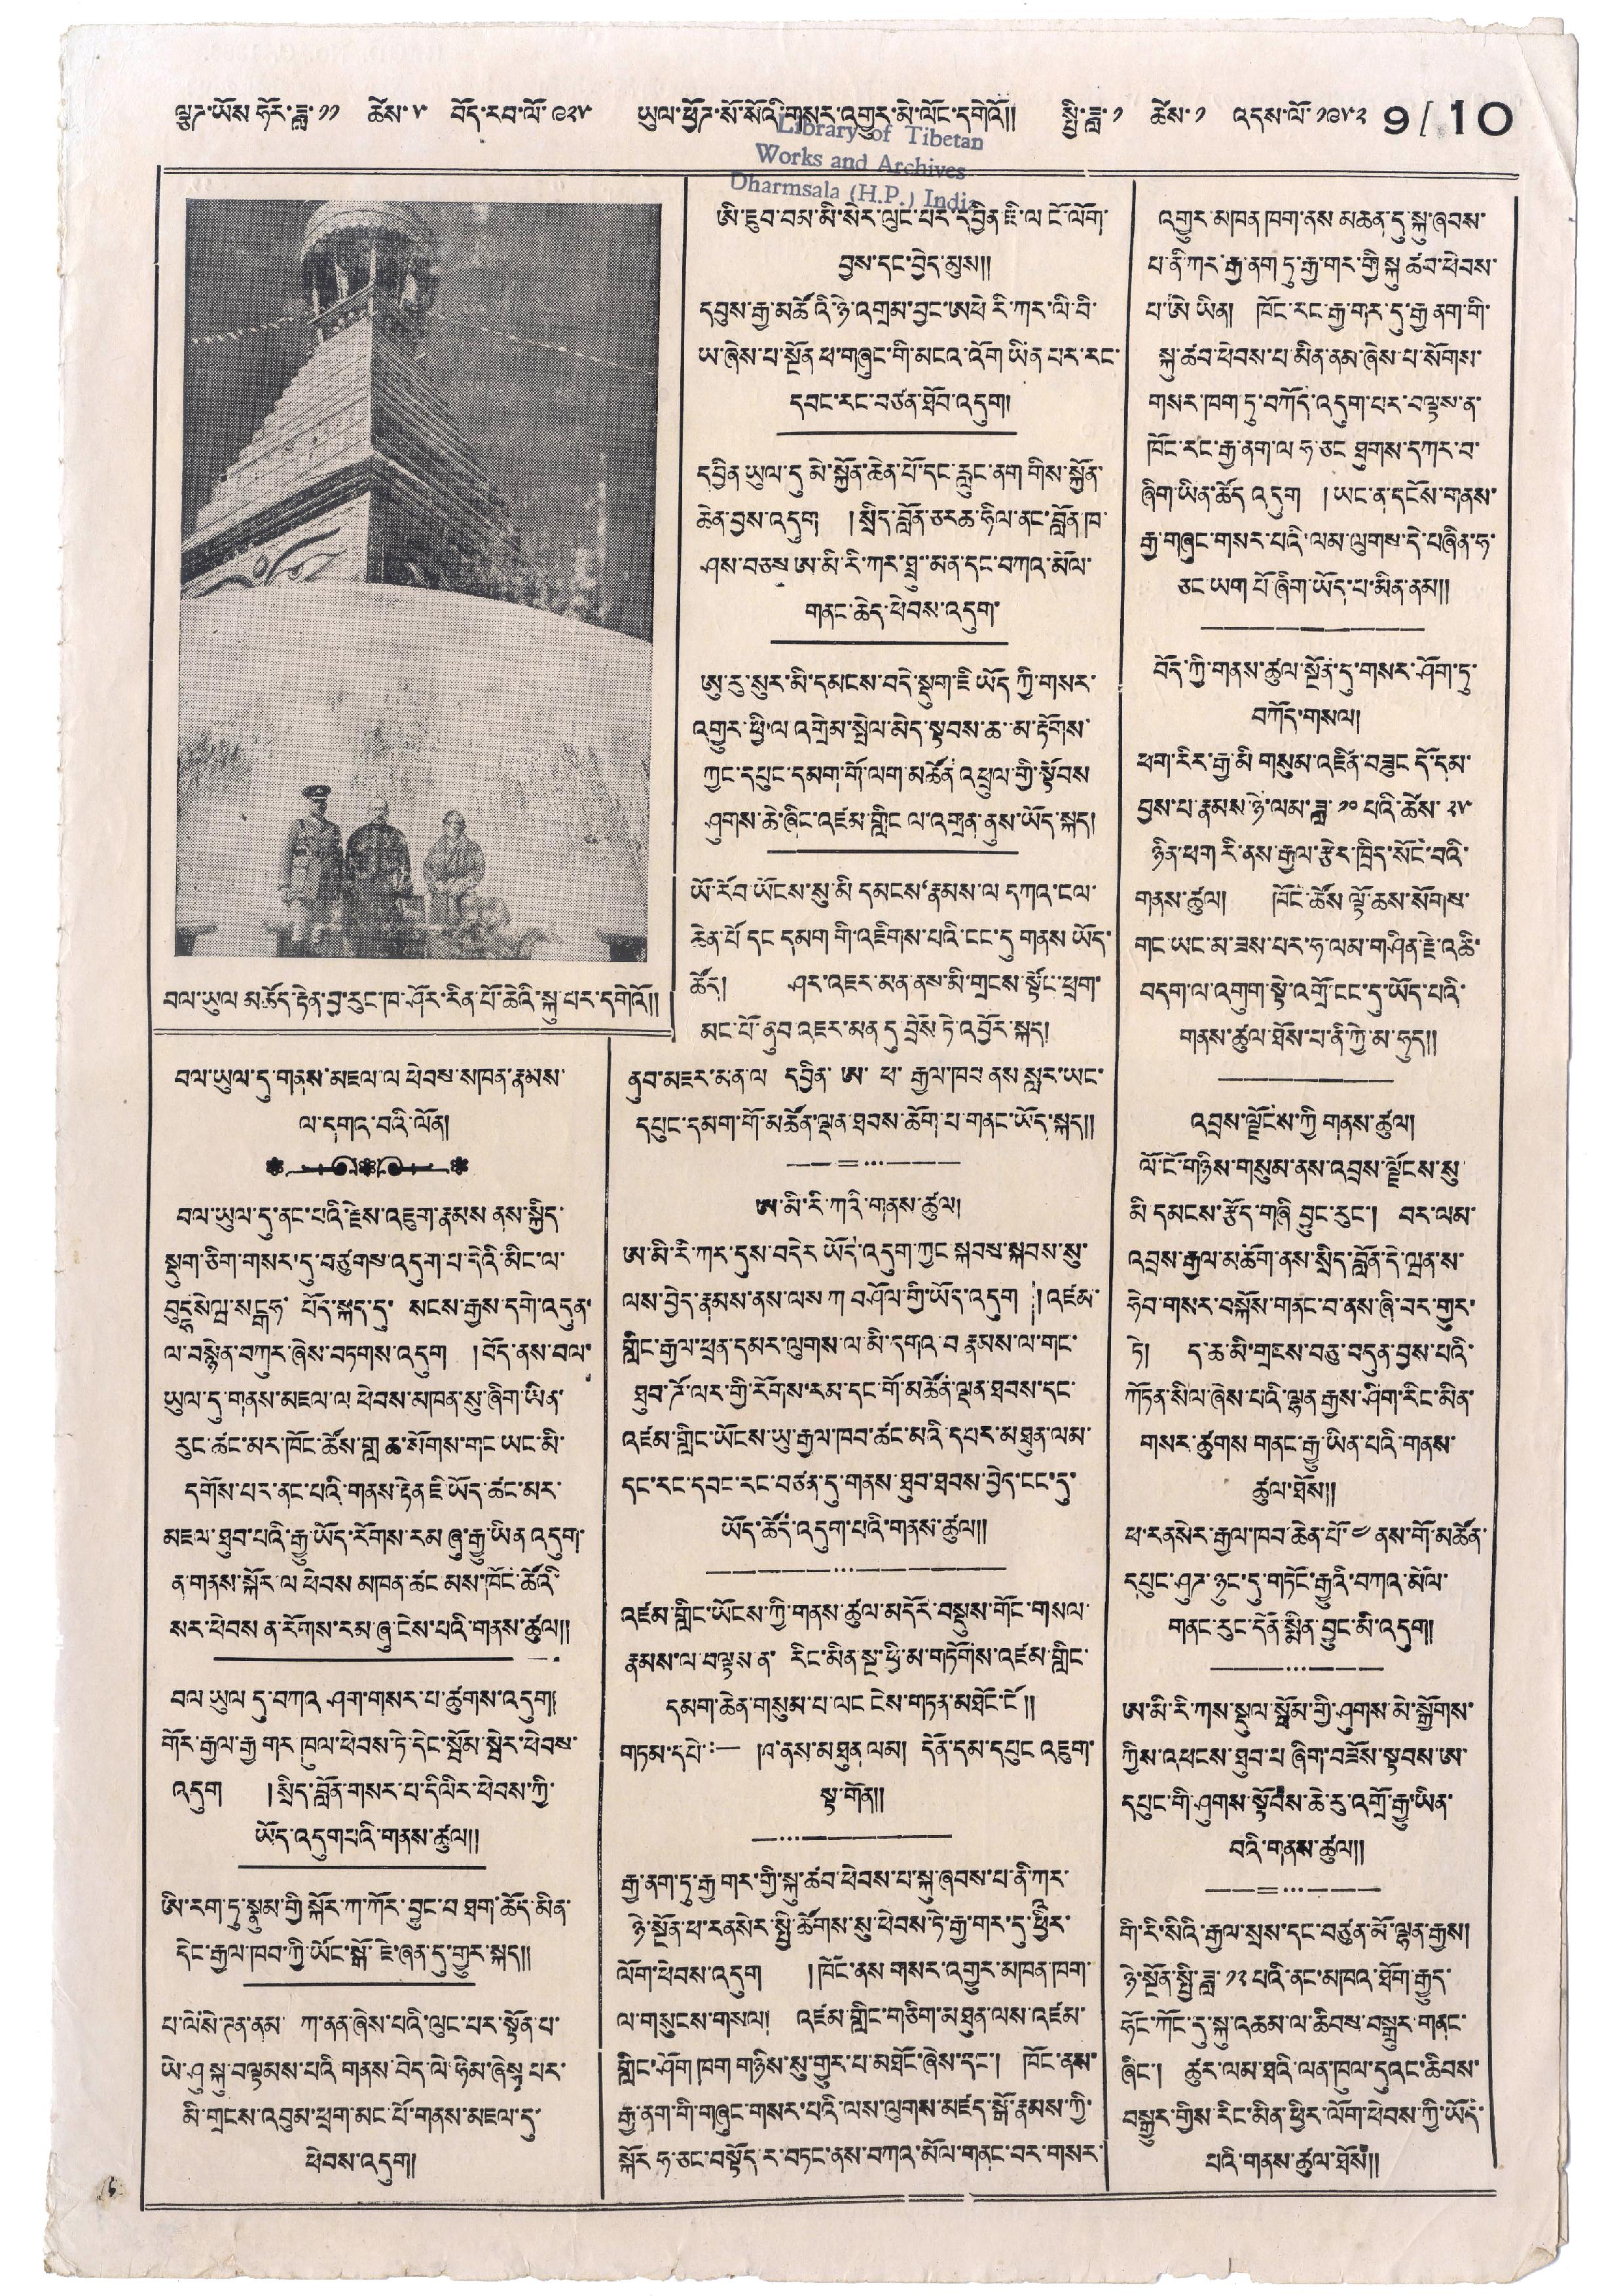ལྕཊ་ཡོས ཧོར་ཟླ་ ༡༡ ཚེས་ ༥ བོད་རབ་ལོ་ ༩༢༥ ཡུལ་ཕྱོཊ་སོ་སོའི་གསར་འགྱུར་མེ་ལོང་དགེའོ།། སྤྱི་ཟླ་ ༡ ཚེས་ ༡ འདས་ལོ་ ༡༩༥༢ 9/10
བལ་ཡུལ་མཆོད་རྟེན་བྱ་རུང་ཁ་ཤོར་རིན་པོ་ཆེའི་སྐུ་པར་དགེའོ།།
བལ་ཡུལ་དུ་གནས་མཇལ་ལ ཕེབས་མཁན་རྣམས་
ལ་དགའ་བའི་ལོན།
བལ་ཡུལ་དུ་ནང་པའི་རྗེས་འཇུག་རྣམས ནས་སྐྱིད་
སྡུག་ཅིག་གསར་དུ་བརྩུགས་འདུག་པ་དེའི་མིང་ལ་
བུདྷསེཝ་སངྒཧ་བོད་སྐད་དུ་སངས་རྒྱས་དགེ་འདུན་
ལ་བསྙེན་བཀུར་ཞེས་བཏགས་འདུག །བོད་ནས་བལ་
ཡུལ་དུ་གནས་མཇལ་ལ ཕེབས་མཁན་སུ་ཞིག་ཡིན་
རུང་ཚང་མང་ཁོང་ཚོས་གླ ཆ་སོགས་གང་ཡང་མི་
དགོས་པར་ནང་པའི་གནས་རྟེན་ཇི་ཡོད་ཚང་མར་
མཇལ་ཐུབ་པའི་རྒྱུ་ཡོད་རོགས་རམ་ཞུ་རྒྱུ་ཡིན་འདུག་
ན་གནས་སྐོར་ལ ཕེབས མཁན་ཚང་མས་ཁོང་ཚོའི་
སར་ཕེབས ན་རོགས་རམ་ཞུ་ངེས་པའི་གནས་ཚུལ།།
བལ་ཡུལ་དུ་བཀའ ཤག་གསར་པ་ཚུགས་འདུག།
གོར་རྒྱལ་རྒྱ་ གར ཁུལ་ཕེབས་ཏེ་དེང་སྦོམ་སྦེར་ཕེབས་
འདུག །སྲིད་བློན་གསར་པ་དིལིར་ཕེབས་ཀྱི་
ཡོད་འདུགཔའི་གནས་ཚུལ།།
ཨི་རག་ཏུ་སྣུམ་གྱི་སྐོར་ཀ་ཀོང་བྱུང་བ ཐག་ཆོད་མིན་
དེང་རྒྱལ་ཁབ་ཀྱི་ཡོང་སྒོ་ཇེ་ཞན་དུ་གྱུར་སྐད།།
པ་ལེ་སེ་ཌན་ནམ་ ཀ་ནན་ཞེས་པའི་ལུང་པར་སྟོན་པ་
ཡེ་ཤུ སྐུ་བལྟམས་པའི གནས་བདེ་ལེ་ཧེམ་ཞེས པར་
མི་གྲངས་འབུམ་ཕྲག་མང་པོ་གནས་མཇལ་དུ་
ཕེབས་འདུག།
ཨི་ཇུབ་བམ་མི་སེར་ལུང་པར་དབྱིན་ཇི་ལ ངོ་ལོག་
བྱས་དང་བྱེད་མུས།།
དབུས་རྒྱ་མཚོའི་ཉེ་འགྲམ་བྱང་ཨཕེརི་ཀར་ལི་བི་
ཡ་ཞེས་པ་སྔོན་ཕ་གཞུང་གི་མངའ་འོག་ཡིན་པར་རང་
དབང་རང་བཙན་ཐོབ་འདུག།
དབྱིན་ཡུལ་དུ མེ་སྐྱོན་ཆེན་པོ་དང་རླུང་ནག གིས་སྐྱོན་
ཆེན་བྱས་འདུག །སྲིད་བློན་ཅར ཆ་ཧིལ་ནང་བློན་ཁ་
ཤས་བཅས ཨ་མི་རི་ཀར་ཐྲུ་མན་དང་བཀའ་མོལ་
གནང་ཆེད་ཕེབས་འདུག་
ཨུ་རུ་སུར་མི་དམངས་བདེ་སྡུག་ཇི་ཡོད་ཀྱི་གསར་
འགྱུར་ཕྱི་ལ འགྲེམ་སྤེལ་མེད་སྟབས་ཆ་མ་རྟོགས་
ཀྱང་དཔུང་དམག་གོ་ལག་མཚོན་འཕྲུལ་གྱི་སྟོབས་
ཤུགས་ཆེ་ཞིང་འཛམ་གླིང ལ་འགྲམ་ནུས་ཡོད་སྐད།
ཡོ་རབ་ཡོངས་སུ་མི་དམངས'རྣམས་ལ དཀའ་ངལ་
ཆེན་པོ་དང་དམག་གི་འཇིགས་པའི་ངང་དུ་གནས་ཡོད་
ཚོད། ཤར་འཇར་མན་ནས་མི་གྲངས་སྟོང་ཕྲག་
མང་པོ་ནུབ་འཇར་མན་དུ བྲོས ཏེ་འབྱོར་སྐད།
ནུབ་མཇར་མན་ལ དབྱིན་ ཨ་ ཕ་ རྒྱལ་ཁབ ནས་སླར་ཡང་
དཔུང་དམག་གོ་མཆོན་ལྡན་ཐབས་ཆོག་པ་གནང་ཡོད་སྐད།།
ཨ་མི་རི་ཀའི་གནས་ཚུལ།
ཨ་མི་རི་ཀར་དུས་བདེར ཡོད་འདུག་ཀྱང་སྐབས་སྐབས་སུ་
ལས་བྱེད་རྣམས་ནས ལས ཀ བཤོལ་གྱི་ཡོད་འདུག །འཛམ་
གླིང་རྒྱལ་ཕྲན་དམར་ལུགས་ལ་མི་དགའ་བ རྣམས་ལ་གང་
ཐུབ་ཌོ་ལར་གྱི་རོགས་རམ་དང་གོ་མཚོན་ལྡན་ཐབས་དང་
འཛམ་གླིང་ཡོངས་ཡུ་རྒྱལ་ཁབ་ཚང་མའི་དབར་མཐུན་ལམ་
དང་རང་དབང་རང་བཙན་དུ་གནས་ཐུབ་ཐབས་བྱེད་ངང་དུ་
ཡོད་ཚོད་འདུག་པའི་གནས་ཚུལ།།
འཛམ་གླིང་ཡོངས་ཀྱི་གནས་ཚུལ་མདོར་བསྡུས་གོང་གསལ་
རྣམས་ལ་བལྟས་ན་ རིང་མིན་སྔ་ཕྱི་མ་གཏོགས་འཛམ་གླིང་
དམག་ཆེན་གསུམ་པ་ལང་ངེས་གཏན་མཐོང་ངོ།།
གཏམ་དཔེ:— ཁ་ནས་མཐུན་ལམ། དོན་དམ་དཔུང་འཇུག་
སྟ་གོན།།
རྒྱ་ནག་ཏུ་རྒྱ་གར་གྱི་སྐུ་ཚབ་ཕེབས་པ་སྐུ་ཞབས་པ་ནི་ཀཱར་
ཉེ་སྔོན་ཕ་རནསེར་སྤྱི་ཚོགས་སུ་ཕེབས་ཏེ་རྒྱ་གར་དུ་ཕྱིར་
ལོགས་ཕེབས་འདུག །ཁོང་ནས གསར་འགྱུར་མཁན་ཁག་
ལ་གསུངས་གསལ། འཛམ་གླིང་གཅིག་མཐུན་ལས་འཛམ་
གླིང་ཤོག ཁག གཉིས་སུ་གྱུར་པ་མཐོང་ཞེས་དང། ཁོང་ནས་
རྒྱ་ནག་གི་གཞུང་གསར་པའི་ལས་ལུགས་མཛད་སྒོ་རྣམས་ཀྱི་
སྐོར ཧ་ཅང་བསྟོད་ར་བཏང་ནས་བཀའ་མོལ་གནང་བར་གསར་
འགྱུར་མཁན ཁག་ནས མཆན་དུ་སྐུ་ཞབས་
པ་ནི་ཀར་རྒྱ་ནག་ཏུ་རྒྱ་གར་གྱི་སྐུ ཚབ་ཕེབས་
པ་ཨེ ཡིན། ཁོང་རང་རྒྱ་གར་དུ་རྒྱ་ནག་གི་
སྐུ་ཚབ་ཕེབས་པ་མིན་ནམ་ཞེས་པ་སོགས་
གསར་ཁག་ཏུ་བཀོད་འདུག་པར་བལྟས་ན་
ཁོང་རང་རྒྱ་ནག་ལ ཧ་ཅང་ཐུགས་དཀར་བ་
ཞིག་ཡིན་ཆོད་འདུག །ཡང་ན་དངོས་གནས་
རྒྱ་གཞུང་གསར་པའི་ལམ་ལུགས་དེ་བཞིན་ཧ་
ཅང་ཡག་པོ ཞིག ཡོད་པ་མིན་ནམ།།
བོད་ཀྱི་གནས་ཚུལ་སྔོན་དུ་གསར་ཤོག་ཏུ་
བཀོད་གསལ།
ཕག་རིར་རྒྱ་མི་ གསུམ་འཛིན་བཟུང དོ་དམ་
བྱས་པ་རྣམས་ཉེ་ལམ་ཟླ་ ༡༠ པའི་ཚེས་ ༢༥
ཉིན་ཕག་རི་ནས་རྒྱལ་རྩེར་ཁྲིད་སོང་བའི་
གནས་ཚུལ། །ཁོང་ཚོས་ལྟོ་ཆས་སོགས་
གང་ཡང་མ་ཟས་པར་ཧ་ལམ་གཤིན་རྗེ་འཆི་
བདག་ལ་འགུག་སྟེ་འགོ་ངང་དུ་ཡོད་པའི་
གནས་ཚུལ་ཐོས་པ་ནི་ཀྱེ་མ་ཧུད།།
འབྲས་ལྗོངས་ཀྱི་གནས་ཚུལ།
ལོ་ངོ་གཉིས་གསུམ་ནས་འབྲས་ལྗོངས་སུ་
མི་དམངས་རྩོད་གཞི བྱུང་རུང་། བར་ལམ་
འབྲས་རྒྱལ་མཆོག་ནས་སྲོད་བློན་དེ་ཝན་ས་
ཧེབ་གསར་བསྐོས་གནང་བ་ནས་ཞི་བར་གྱུར་
ཏེ། ད་ཆ་མི་གྲངས་བཅུ་བདུན་བྱས་པའི་
ཀོཏན་སིལ་ཞིས་པའི་ལྷན་རྒྱས་ཤིག་རིང་མིན་
གསར་ཚུགས་གནང་རྒྱུ་ཡིན་པའི་གནས་
ཚུལ་ཐོས།།
ཕ་རནསེར་རྒྱལ་ཁབ་ཆེན་པོ་ ༤ ནས་གོ་མཚོན་
དཔུང་ཤུཊ་ཉུང་དུ་གཏོང་རྒྱུའི་བཀའ་མོལ་
གནང་རུང་དོན་སྨིན་བྱུང་མི་འདུག།
ཨ་མི་རི་ཀས་སྡུལ་སྦོམ་གྱི་ཤུགས་མེ་སྒྱོགས་
ཀྱིས་འཕངས་ཐུབ་པ་ཞིག་བཟོས་སྟབས་ཨ་
དཔུང་གི་ཤུགས་སྟོབས་ཆེ་རུ་འགྲོ་རྒྱུ་ཡིན་
པའི་གནས་ཚུལ།།
གི་རི་སིའི་རྒྱལ་སྲས་དང་བཙུན་མོ་ལྷན་རྒྱས།
ཉེ་སྔོན་སྤྱི་ཟླ་ ༡༢ པའི་ནང་མཁའ་ཐོག་རྒྱུད་
ཧོང་ཀོང་དུ་སྐུ་འཆམ་ལ་ཆིབས་བསྒྱུར་གནང་
ཞིང་། ཚུར་ལམ་ཐའི་ལན་ཁུལ་དུའང་ཆིབས་
བསྒྱུར་གྱིས་རིང་མིན་ཕྱིར་ལོག་ཕེབས་ཀྱི་ཡོད་
པའི་གནས་ཚུལ་ཐོས།།
